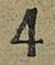4
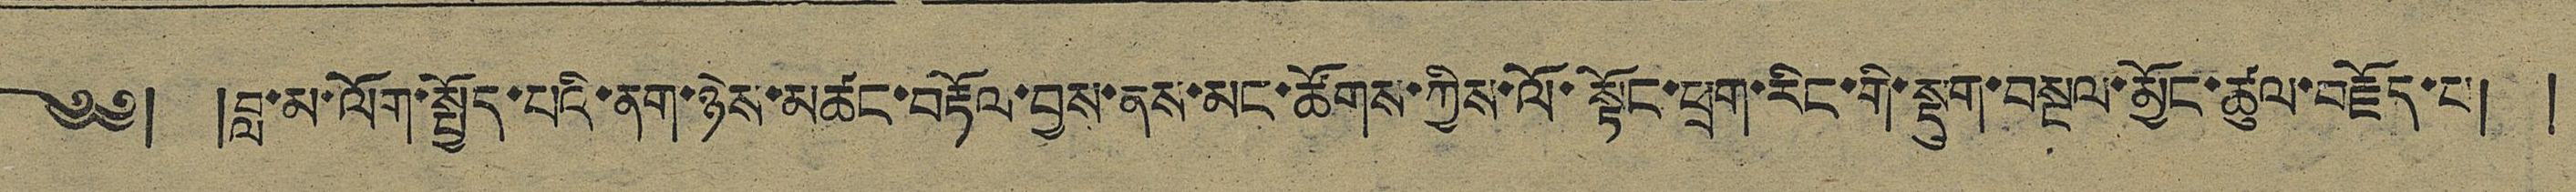༄༅། །བླ་མ་ལོག་སྤྱོད་པའི་ནག་ཉེས་མཚང་བརྟོལ་བྱས་ནས་མང་ཚོགས་ཀྱིས་ལོ་སྟོང་ཕྲག་རིང་གི་སྡུག་བསྔལ་མྱོང་ཚུལ་བརྗོད་པ། །
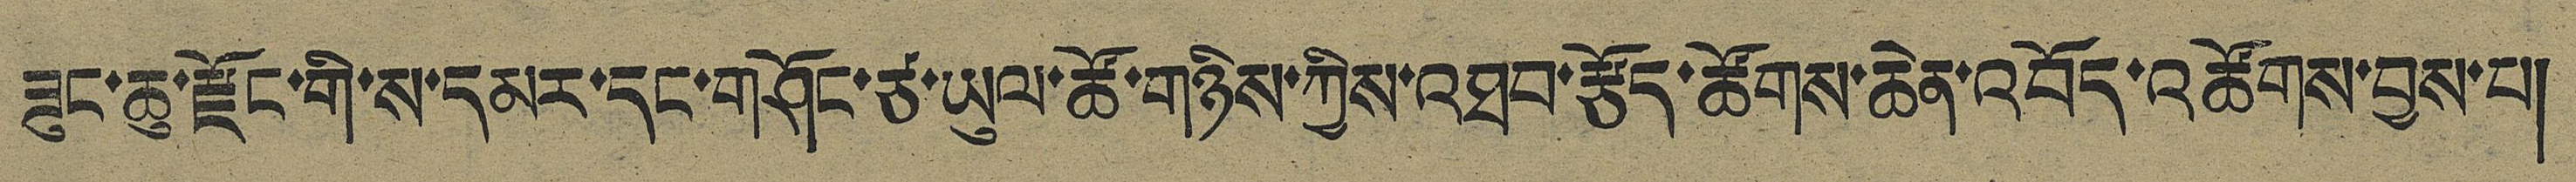ཟུང་ཆུ་རྫོང་གི་ས་དམར་དང་གཤོང་ཙ་ཡུལ་ཚོ་གཉིས་ཀྱིས་འཐབ་རྩོད་ཚོགས་ཆེན་འབོད་འཚོགས་བྱས་པ།
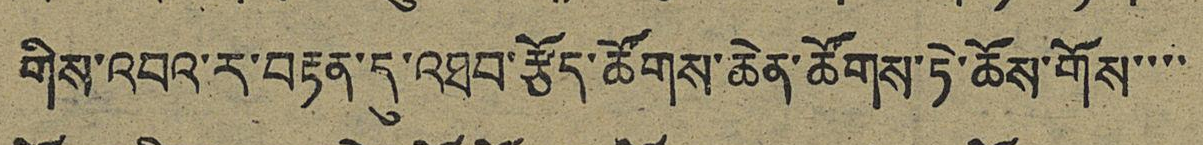གིས་འབའ་ར་བརྟན་དུ་འཐབ་རྩོད་ཚོགས་ཆེན་ཚོགས་ཏེ་ཆོས་གོས་་་་
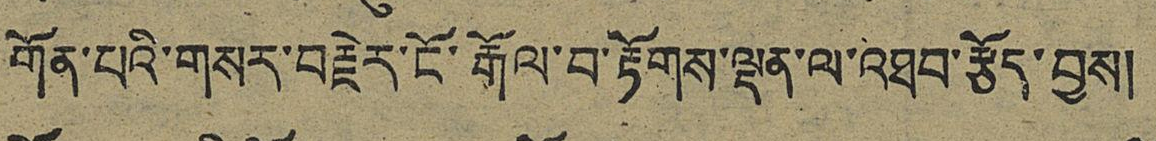གོན་པའི་གསར་བརྗེར་ངོ་རྒོལ་བ་རྟོགས་ལྡན་ལ་འཐབ་རྩོད་བྱས།
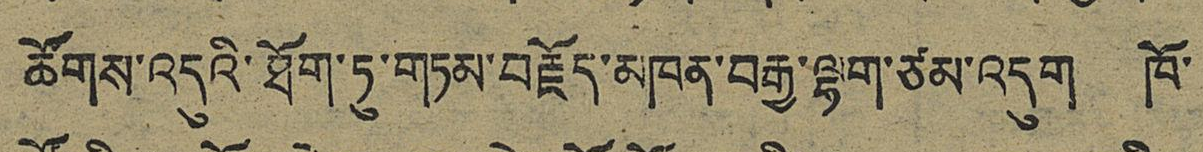ཚོགས་འདུའི་ཐོག་ཏུ་གཏམ་བརྗོད་མཁན་བརྒྱ་ལྷག་ཙམ་འདུག ཁོ་
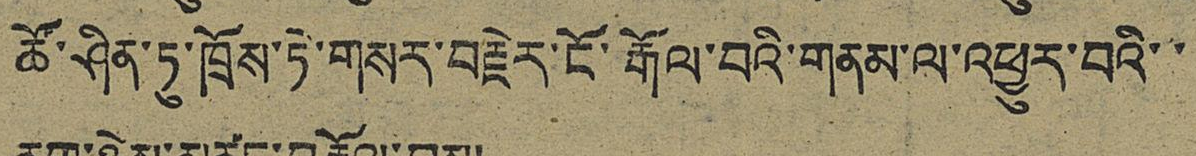ཚོ་ཤིན་ཏུ་ཁྲོས་ཏེ་གསར་བརྗེར་ངོ་རྒོལ་བའི་གནམ་ལ་འཕྱུར་བའི་་
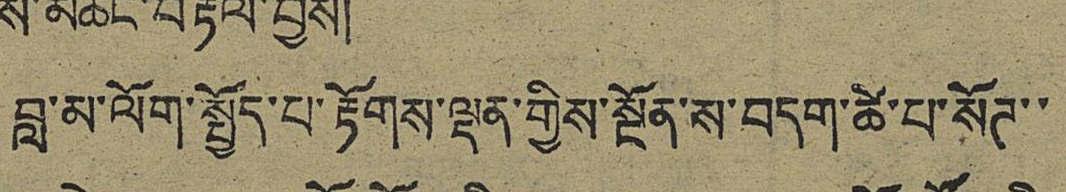བླ་མ་ལོག་སྤྱོད་པ་རྟོགས་ལྡན་གྱིས་སྔོན་ས་བདག་ཚེ་པ་སོཊ་་
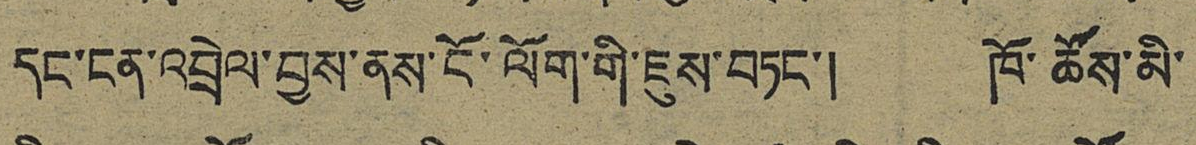དང་ངན་འབྲེལ་བྱས་ནས་ངོ་ལོག་གི་ཇུས་བཏང་། ཁོ་ཚོས་མི་
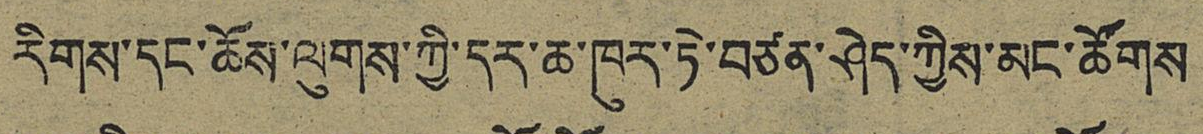རིགས་དང་ཆོས་ལུགས་ཀྱི་དར་ཆ་ཁུར་ཏེ་བཙན་ཤེད་ཀྱིས་མང་ཚོགས
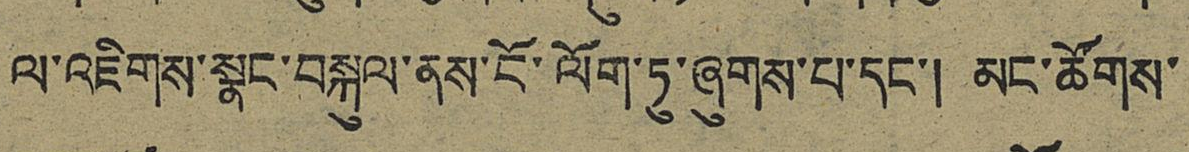ལ་འཇིགས་སྣང་བསྐུལ་ནས་ངོ་ལོག་ཏུ་ཞུགས་པ་དང་། མང་ཚོགས་
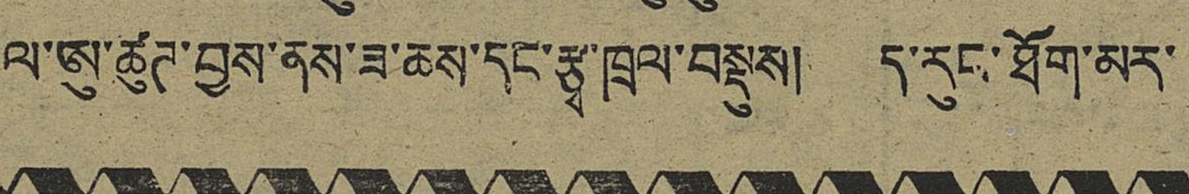ལ་ཨུ་ཚུཊ་བྱས་ནས་ཟ་ཆས་དང་རྩྭ་ཁྲལ་བསྡུས། ད་རུང་ཐོག་མར་
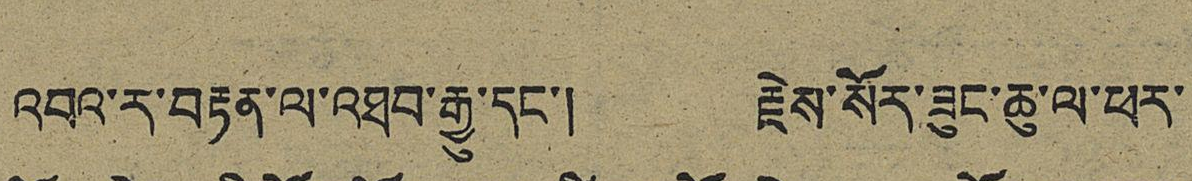འབའ་ར་བརྟན་ལ་འཐབ་རྒྱུ་དང་། རྗེས་སོར་ཟུང་ཆུ་ལ་ཕར་
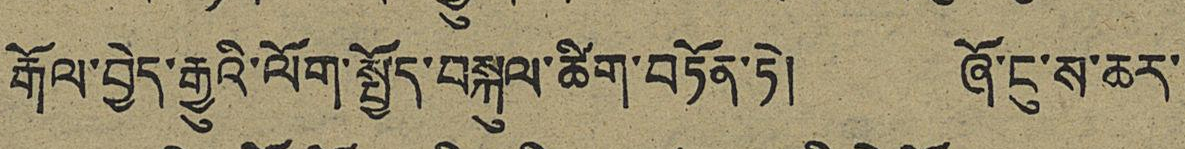རྒོལ་བྱེད་རྒྱུའི་ལོག་སྤྱོད་བསྐུལ་ཚིག་བཏོན་ཏེ། ཞོ་ངུ་ས་ཆར་
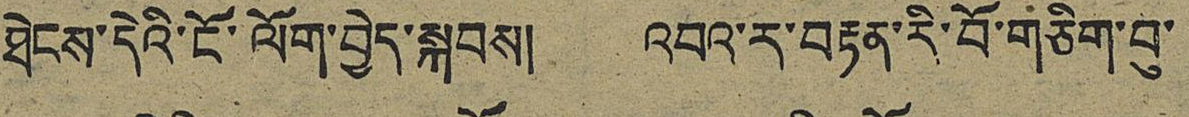ཐེངས་དེའི་ངོ་ལོག་བྱེད་སྐབས། འབའ་ར་བརྟན་རི་བོ་གཅིག་བུ་
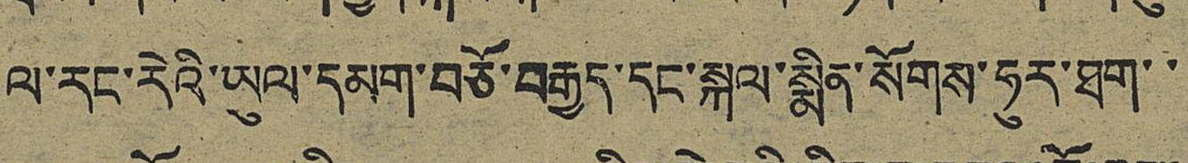ལ་རང་རེའི་ཡུལ་དམག་བཅོ་བརྒྱད་དང་སྐལ་སྨིན་སོགས་ཧུར་ཐག་་
